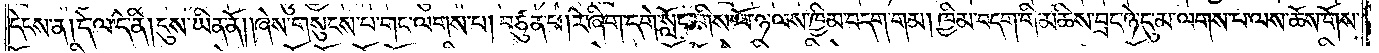དེངས་ན། དེ་ལ་དེ་ནི། དུས་ཡིན་ནོ། །ཞེས་གསུངས་པ་གང་ལགས་པ། བཙུན་པ། རེ་ཞིག་དགེ་སློང་གིས་ཕོ་ཉ་ལས་ཁྱིམ་བདག་གམ། ཁྱིམ་བདག་གི་མཆིས་བྲང་ཉེ་དུ་མ་ལགས་པ་ལས་ཆོས་གོས་
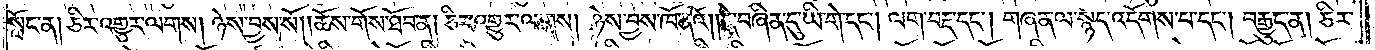སློང་ན། ཅིར་འགྱུར་ལགས། ཉེས་བྱས་སོ། །ཆོས་གོས་ཐོབ་ན། ཅིར་འགྱུར་ལགས། ཉེས་བྱས་ཁོ་ནའོ། །དེ་བཞིན་དུ་ཡི་གེ་དང༌། ལག་བརྡ་དང༌། གཞན་ལ་སྙད་འདོགས་པ་དང༌། བརྒྱུད་ན། ཅིར་
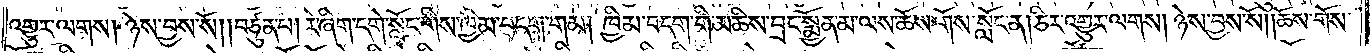འགྱུར་ལགས། ཉེས་བྱས་སོ། །བཙུན་པ། རེ་ཞིག་དགེ་སློང་གིས་ཁྱིམ་བདག་གམ། ཁྱིམ་བདག་གི་མཆིས་བྲང་སྨྱོན་མ་ལས་ཆོས་གོས་སློང་ན། ཅིར་འགྱུར་ལགས། ཉེས་བྱས་སོ། །ཆོས་གོས་
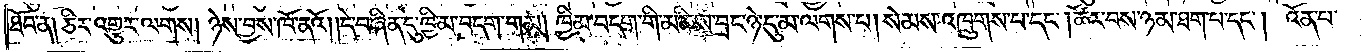ཐོབ་ན། ཅིར་འགྱུར་ལགས། ཉེས་བྱས་ཁོ་ནའོ། །དེ་བཞིན་དུ་ཁྱིམ་བདག་གམ། ཁྱིམ་བདག་གི་མཆིས་བྲང་ཉེ་དུ་མ་ལགས་པ། སེམས་འཁྲུགས་པ་དང༌། ཚོར་བས་ཉམ་ཐག་པ་དང༌། འོན་པ་
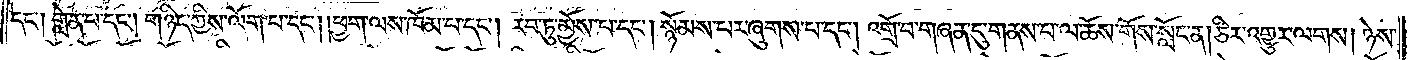དང༌། གླེན་པ་དང༌། གཉིད་ཀྱིས་ལོག་པ་དང༌། །ཕྱག་ལས་ཁོམ་པ་དང༌། རབ་ཏུ་མྱོས་པ་དང༌། སྙོམས་པར་ཞུགས་པ་དང༌། འགྲོ་བ་གཞན་དུ་གནས་པ་ལ་ཆོས་གོས་སློང་ན། ཅིར་འགྱུར་ལགས། ཉེས་
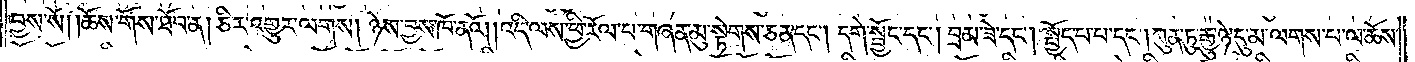བྱས་སོ། །ཆོས་གོས་ཐོབ་ན། ཅིར་འགྱུར་ལགས། ཉེས་བྱས་ཁོ་ནའོ། །འདི་ལས་ཕྱི་རོལ་པ་གཞན་མུ་སྟེགས་ཅན་དང༌། དགེ་སྦྱོང་དང༌། བྲམ་ཟེ་དང༌། སྤྱོད་པ་པ་དང༌། ཀུན་ཏུ་རྒྱུ་ཉེ་དུ་མ་ལགས་པ་ལ་ཆོས་
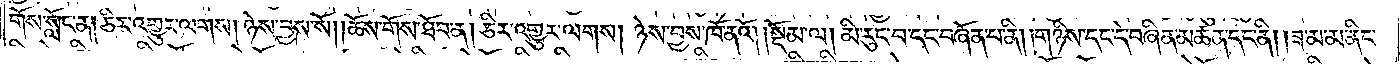གོས་སློང་ན། ཅིར་འགྱུར་ལགས། ཉེས་བྱས་སོ། །ཆོས་གོས་ཐོབ་ན། ཅིར་འགྱུར་ལགས། ཉེས་བྱས་ཁོ་ནའོ།    །སྡོམ་ལ། མི་རུང་བ་དང་བཞོན་པ་ནི། །གཉིས་དང་དེ་བཞིན་མཚན་དང་ནི། །ཟ་མ་མ་ནིང་
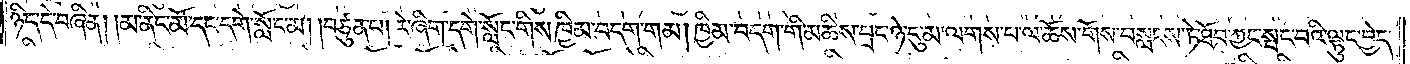ཉིད་དེ་བཞིན། །མ་ནིང་མོ་དང་དགེ་སློང་མ། །བཙུན་པ། རེ་ཞིག་དགེ་སློང་གིས་ཁྱིམ་བདག་གམ། ཁྱིམ་བདག་གི་མཆིས་བྲང་ཉེ་དུ་མ་ལགས་པ་ལ་ཆོས་གོས་བསླངས་ཏེ་ཐོབ་ཀྱང་སྤང་བའི་ལྟུང་བྱེད་
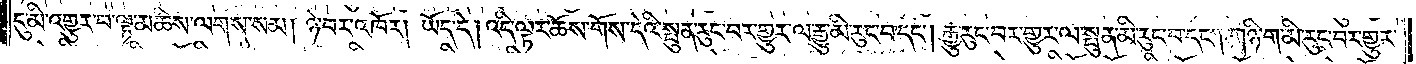དུ་མི་འགྱུར་བ་ལྟ་མཆིས་ལགས་སམ། ཉེ་བར་འཁོར། ཡོད་དེ། འདི་ལྟར་ཆོས་གོས་དེའི་སྤུན་རུང་བར་གྱུར་ལ་རྒྱུ་མི་རུང་བ་དང༌། རྒྱུ་རུང་བར་གྱུར་ལ་སྤུན་མི་རུང་བ་དང༌། གཉི་ག་མི་རུང་བར་གྱུར་
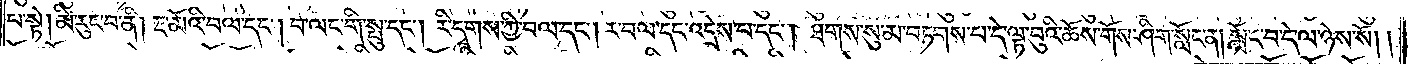པ་སྟེ། མི་རུང་བ་ནི། རྔ་མོའི་བལ་དང༌། བ་ལང་གི་སྤུ་དང༌། རི་དྭགས་ཀྱི་བལ་དང༌། ར་བལ་དང་འདྲེས་པ་དང༌། ཐགས་སུ་མ་བཏགས་པ་དེ་ལྟ་བུའི་ཆོས་གོས་ཤིག་སློང་ན། སློང་བ་དེ་ལ་ཉེས་སོ། །
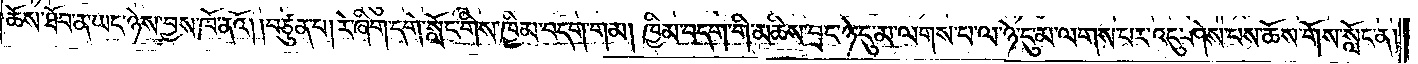ཆོས་ཐོབ་ན་ཡང་ཉེས་བྱས་ཁོ་ནའོ། །བཙུན་པ། རེ་ཞིག་དགེ་སློང་གིས་ཁྱིམ་བདག་གམ། ཁྱིམ་བདག་གི་མཆིས་བྲང་ཉེ་དུ་མ་ལགས་པ་ལ་ཉེ་དུ་མ་ལགས་པར་འདུ་ཤེས་པས་ཆོས་གོས་སློང་ན་
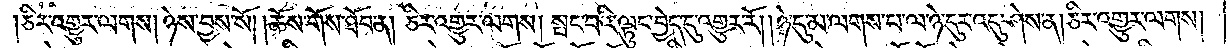ཅིར་འགྱུར་ལགས། ཉེས་བྱས་སོ། །ཆོས་གོས་ཐོབ་ན། ཅིར་འགྱུར་ལགས། སྤང་བའི་ལྟུང་བྱེད་དུ་འགྱུར་རོ། །ཉེ་དུ་མ་ལགས་པ་ལ་ཉེ་དུར་འདུ་ཤེས་ན། ཅིར་འགྱུར་ལགས།
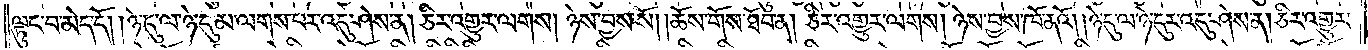ལྟུང་བ་མེད་དོ། །ཉེ་དུ་ལ་ཉེ་དུ་མ་ལགས་པར་འདུ་ཤེས་ན། ཅིར་འགྱུར་ལགས། ཉེས་བྱས་སོ། །ཆོས་གོས་ཐོབ་ན། ཅིར་འགྱུར་ལགས། ཉེས་བྱས་ཁོ་ནའོ། །ཉེ་དུ་ལ་ཉེ་དུར་འདུ་ཤེས་ན། ཅིར་འགྱུར་
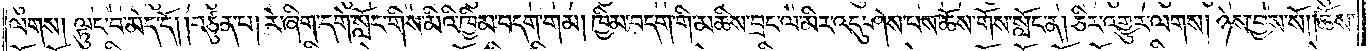ལགས། ལྟུང་བ་མེད་དོ། །བཙུན་པ། རེ་ཞིག་དགེ་སློང་གིས་མིའི་ཁྱིམ་བདག་གམ། ཁྱིམ་བདག་གི་མཆིས་བྲང་ལ་མིར་འདུ་ཤེས་པས་ཆོས་གོས་སློང་ན། ཅིར་འགྱུར་ལགས། ཉེས་བྱས་སོ། །ཆོས་
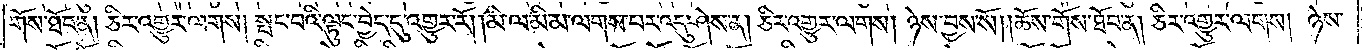གོས་ཐོབ་ན། ཅིར་འགྱུར་ལགས། སྤང་བའི་ལྟུང་བྱེད་དུ་འགྱུར་རོ། །མི་ལ་མི་མ་ལགས་པར་འདུ་ཤེས་ན། ཅིར་འགྱུར་ལགས། ཉེས་བྱས་སོ། །ཆོས་གོས་ཐོབ་ན། ཅིར་འགྱུར་ལགས། ཉེས་
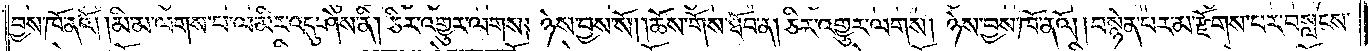བྱས་ཁོ་ནའོ། །མི་མ་ལགས་པ་ལ་མིར་འདུ་ཤེས་ནི། ཅིར་འགྱུར་ལགས། ཉེས་བྱས་སོ། །ཆོས་གོས་ཐོབ་ན། ཅིར་འགྱུར་ལགས། ཉེས་བྱས་ཁོ་ནའོ། །བསྙེན་པར་མ་རྫོགས་པར་བསླངས་
